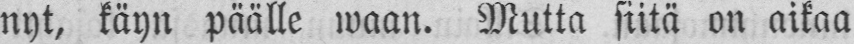nyt, käyn päälle waan. Mutta siitä on aikaa
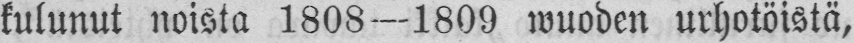kulunut noista 1808—1809 wuoden urhotöistä,
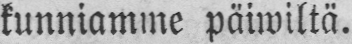kunniamme päiwiltä.
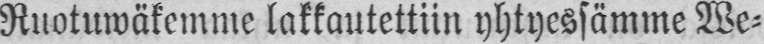Ruotuwäkemme lakkautettiin yhtyessämme We-
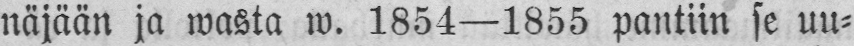näjään ja wasta w. 185 4—1855 pantiin se uu-
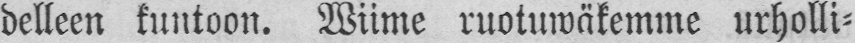delleen kuntoon. Wiime ruotuwäkemme urholli-
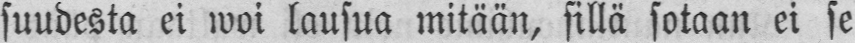suudesta ei woi lausua mitään, sillä sotaan ei se
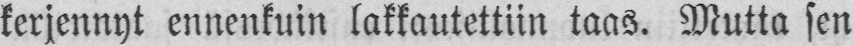kerjennyt ennenkuin lakkautettiin taas. Mutta sen
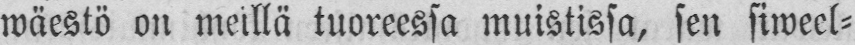wäestä on meillä tuoreessa muistissa, sen siweel-
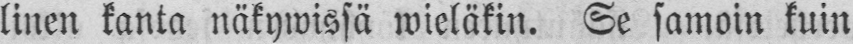linen kanta näkywissä wieläkin. Se samoin kuin
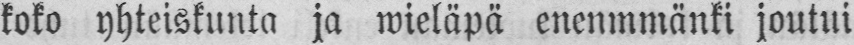koko yhteiskunta ja wieläpä enenmmänki joutui
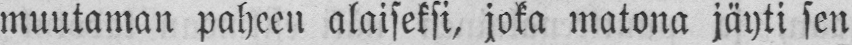muutaman paheen alaiseksi, joka matona jäyti sen
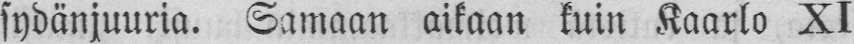sydänjuuria. Samaan aikaan kuin Kaarlo XI
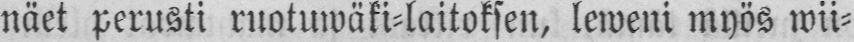näet perusti ruotuwäki-laitoksen, leweni myös wii-
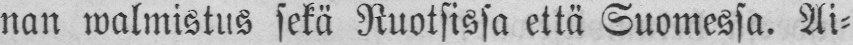nan walmistus sekä Ruotsissa että Suomessa. Ai-
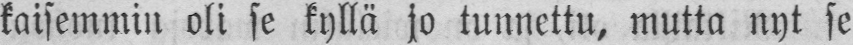kaisemmin oli se kyllä jo tunnettu, mutta nyt se
